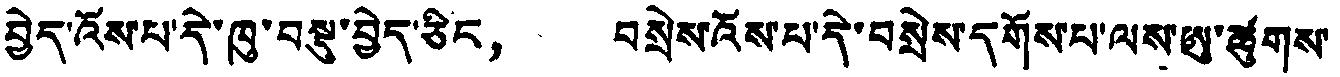བྱེད་འོས་པ་དེ་ཁུ་བསྡུ་བྱེད་ཅིང， བསྲེས་འོས་པ་དེ་བསྲེས་དགོས་པ་ལས་ཨུ་ཚུགས་
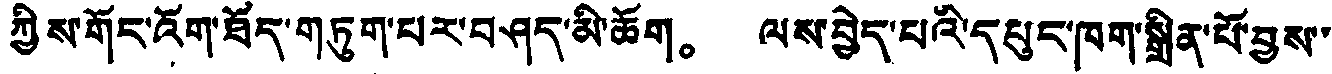ཀྱིས་གོང་འོག་ཐོད་གཏུག་པར་བཤད་མི་ཆོག。 ལས་བྱེད་པའི་དཔུང་ཁག་སྒྲིན་པོ་བྱས་་
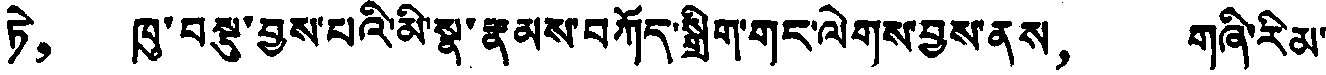ཏེ， ཁུ་བསྡུ་བྱས་པའི་མི་སྣ་རྣམས་བཀོད་སྒྲིག་གང་ལེགས་བྱས་ནས， གཞི་རིམ་
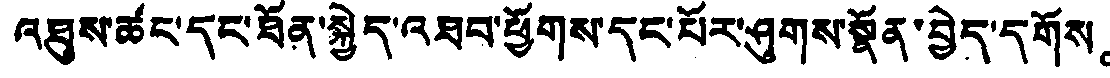འཐུས་ཚང་དང་ཐོན་སྐྱེད་འཐབ་ཕྱོགས་དང་པོར་ཤུགས་སྣོན་བྱེད་དགོས。
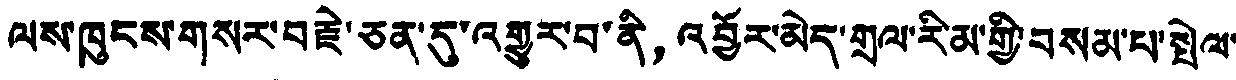ལས་ཁུངས་གསར་བརྗེ་ཅན་དུ་འགྱུར་བ་ནི，འབྱོར་མེད་གྲལ་རི་མ་གྱི་བསམ་པ་སྤེལ་
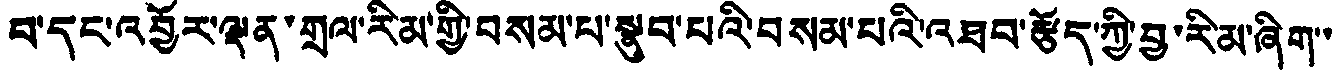བ་དང་འབྱོར་ལྡན་གྲལ་རིམ་གྱི་བསམ་པ་སྣུབ་པའི་བསམ་པའི་འཐབ་རྩོད་ཀྱི་བྱ་རིམ་ཞིག་་
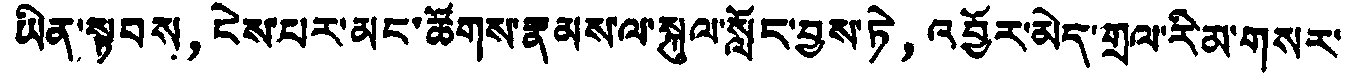ཡིན་སྟབས，ངེས་པར་མང་ཚོགས་རྣམས་ལ་སྐུལ་སློང་བྱས་ཏེ，འབྱོར་མེད་གྲལ་རིམ་གསར་
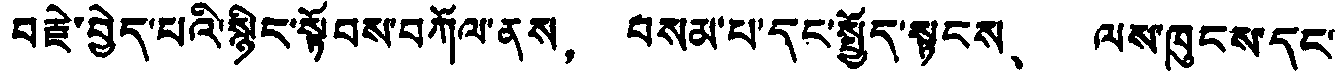བརྗེ་བྱེད་པའི་སྙིང་སྟོབས་བཀོལ་ནས， བསམ་པ་དང་སྤྱོད་སྟངས、 ལས་ཁུངས་དང་
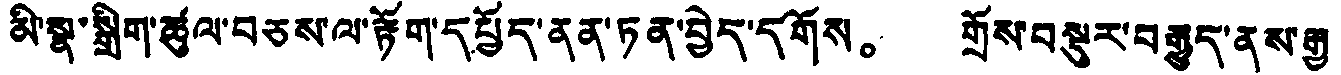མི་སྣ་སྒྲིག་ཚུལ་བཅས་ལ་རྟོག་དཔྱོད་ནན་ཏན་བྱེད་དགོས。 གྲོས་བསྡུར་བརྒྱུད་ནས་རྒྱ་
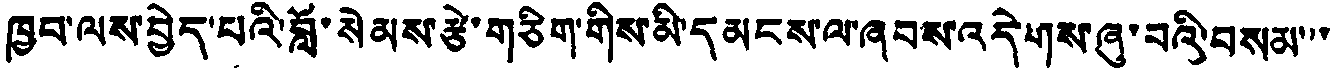ཁྱབ་ལས་བྱེད་པའི་བློ་སེམས་རྩེ་གཅིག་གིས་མི་དམངས་ལ་ཞབས་འདེགས་ཞུ་བའི་བསམ་་་
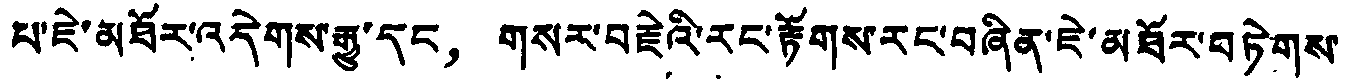པ་ཇེ་མཐོར་འདེགས་རྒྱུ་དང， གསར་བརྗེའི་རང་རྟོགས་རང་བཞིན་ཇེ་མཐོར་བཏེགས་
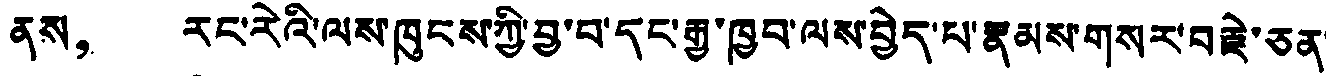ནས， རང་རེའི་ལས་ཁུངས་ཀྱི་བྱ་བ་དང་རྒྱ་ཁྱབ་ལས་བྱེད་པ་རྣམས་གསར་བརྗེ་ཅན་
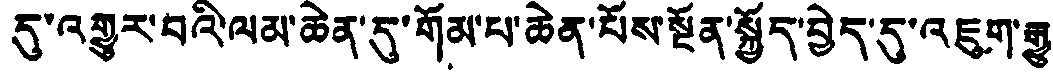དུ་འགྱུར་བའི་ལམ་ཆེན་དུ་གོམ་པ་ཆེན་པོས་སྔོན་སྐྱོད་བྱེད་དུ་འཇུག་རྒྱུ。
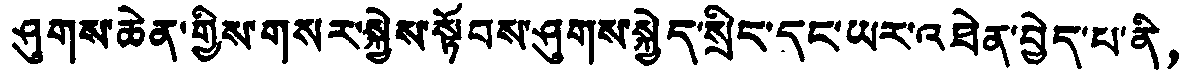ཤུགས་ཆེན་གྱིས་གསར་སྐྱེས་སྟོབས་ཤུགས་སྐྱེད་སྲིང་དང་ཡར་འཐེན་བྱེད་པ་ནི，
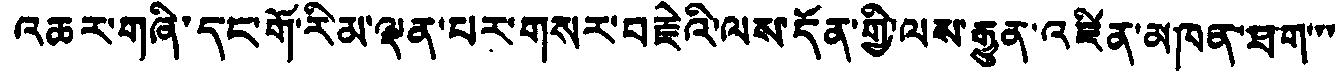འཆར་གཞི་དང་གོ་རིམ་ལྡན་པར་གསར་བརྗེའི་ལས་དོན་གྱི་ལས་རྒྱུན་འཛིན་མཁན་ཐག་་་
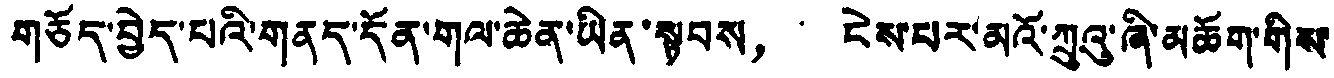གཅོད་བྱེད་པའི་གནད་དོན་གལ་ཆེན་ཡིན་སྟབས， ངེས་པར་མའོ་ཀྲུའུ་ཞི་མཆོག་གིས་
